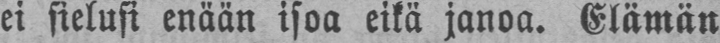ei sielusi enään isoa eikä janoa. Elämän
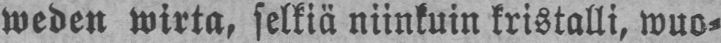weden wirta, selkiä niinkuin kristalli, wuo-
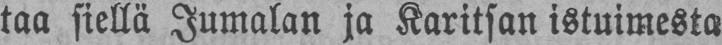taa siellä Jumalan ja Karitsan istuimesta
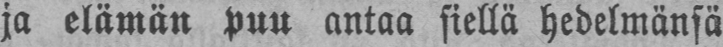ja elämän puu antaa siellä hedelmänsä
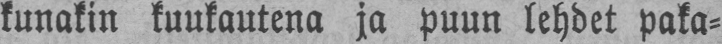kunakin kuukautena ja puun lehdet paka-
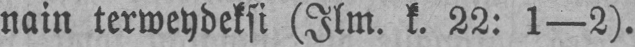nain terweydeksi (Ilm.k.22:1—2).
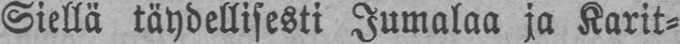Siellä täydellisesti Jumalaa ja Karit-
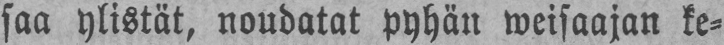saa ylistät, noudatat pyhän weisaajan ke-
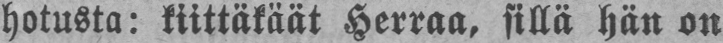hotusta: kiittäkäät Herraa, sillä hän on
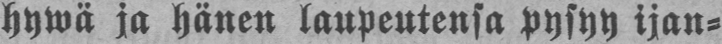hywä ja hänen laupeutensa pysyy ijan-
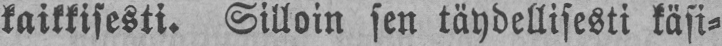kaikkisesti. Silloin sen täydellisesti käsi-
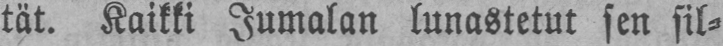tät. Kaikki Jumalan lunastetut sen sil-
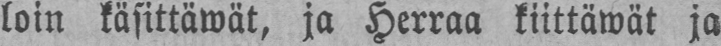loin käsittäwät, ja Herraa kiittäwät ja
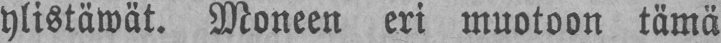ylistäwät. Moneen eri muotoon tämä
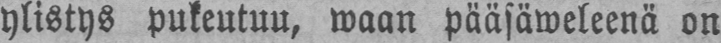ylistys pukeutuu, waan pääsäweleenä on
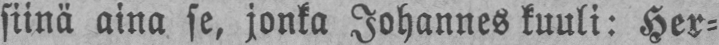siinä aina se, jonka Johannes kuuli: Her-
